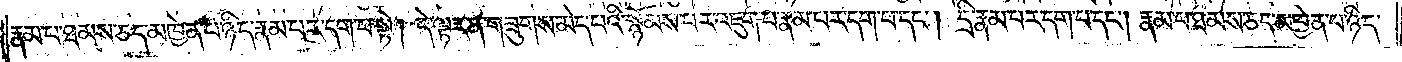རྣམ་པ་ཐམས་ཅད་མཁྱེན་པ་ཉིད་རྣམ་པར་དག་པ་སྟེ། དེ་ལྟར་ན་གཟུགས་མེད་པའི་སྙོམས་པར་འཇུག་པ་རྣམ་པར་དག་པ་དང༌། དྲི་རྣམ་པར་དག་པ་དང༌། རྣམ་པ་ཐམས་ཅད་མཁྱེན་པ་ཉིད་
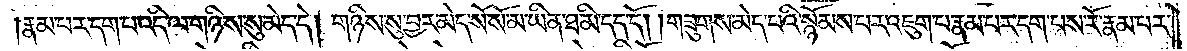རྣམ་པར་དག་པ་འདི་ལ་གཉིས་སུ་མེད་དེ། གཉིས་སུ་བྱར་མེད་སོ་སོ་མ་ཡིན་ཐ་མི་དད་དོ། །གཟུགས་མེད་པའི་སྙོམས་པར་འཇུག་པ་རྣམ་པར་དག་པས་རོ་རྣམ་པར་
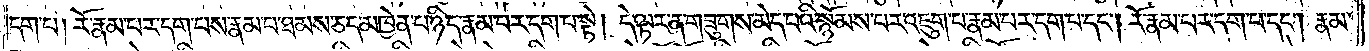དག་པ། རོ་རྣམ་པར་དག་པས་རྣམ་པ་ཐམས་ཅད་མཁྱེན་པ་ཉིད་རྣམ་པར་དག་པ་སྟེ། དེ་ལྟར་ན་གཟུགས་མེད་པའི་སྙོམས་པར་འཇུག་པ་རྣམ་པར་དག་པ་དང༌། རོ་རྣམ་པར་དག་པ་དང༌། རྣམ་
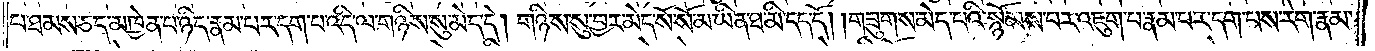པ་ཐམས་ཅད་མཁྱེན་པ་ཉིད་རྣམ་པར་དག་པ་འདི་ལ་གཉིས་སུ་མེད་དེ། གཉིས་སུ་བྱར་མེད་སོ་སོ་མ་ཡིན་ཐ་མི་དད་དོ། །གཟུགས་མེད་པའི་སྙོམས་པར་འཇུག་པ་རྣམ་པར་དག་པས་རེག་རྣམ་
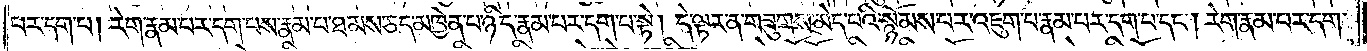པར་དག་པ། རེག་རྣམ་པར་དག་པས་རྣམ་པ་ཐམས་ཅད་མཁྱེན་པ་ཉིད་རྣམ་པར་དག་པ་སྟེ། དེ་ལྟར་ན་གཟུགས་མེད་པའི་སྙོམས་པར་འཇུག་པ་རྣམ་པར་དག་པ་དང༌། རེག་རྣམ་པར་དག་
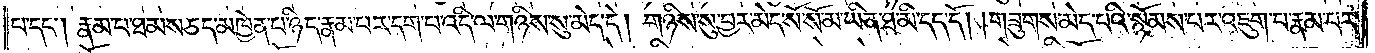པ་དང༌། རྣམ་པ་ཐམས་ཅད་མཁྱེན་པ་ཉིད་རྣམ་པར་དག་པ་འདི་ལ་གཉིས་སུ་མེད་དེ། གཉིས་སུ་བྱར་མེད་སོ་སོ་མ་ཡིན་ཐ་མི་དད་དོ། །གཟུགས་མེད་པའི་སྙོམས་པར་འཇུག་པ་རྣམ་པར་
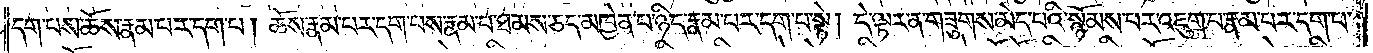དག་པས་ཆོས་རྣམ་པར་དག་པ། ཆོས་རྣམ་པར་དག་པས་རྣམ་པ་ཐམས་ཅད་མཁྱེན་པ་ཉིད་རྣམ་པར་དག་པ་སྟེ། དེ་ལྟར་ན་གཟུགས་མེད་པའི་སྙོམས་པར་འཇུག་པ་རྣམ་པར་དག་པ་
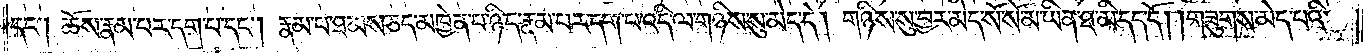དང༌། ཆོས་རྣམ་པར་དག་པ་དང༌། རྣམ་པ་ཐམས་ཅད་མཁྱེན་པ་ཉིད་རྣམ་པར་དག་པ་འདི་ལ་གཉིས་སུ་མེད་དེ། གཉིས་སུ་བྱར་མེད་སོ་སོ་མ་ཡིན་ཐ་མི་དད་དོ། །གཟུགས་མེད་པའི་
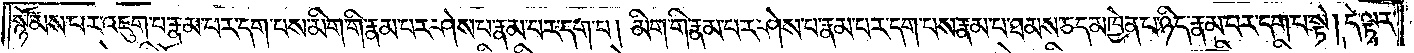སྙོམས་པར་འཇུག་པ་རྣམ་པར་དག་པས་མིག་གི་རྣམ་པར་ཤེས་པ་རྣམ་པར་དག་པ། མིག་གི་རྣམ་པར་ཤེས་པ་རྣམ་པར་དག་པས་རྣམ་པ་ཐམས་ཅད་མཁྱེན་པ་ཉིད་རྣམ་པར་དག་པ་སྟེ། དེ་ལྟར་
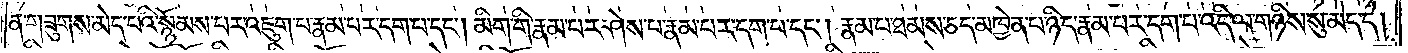ན་གཟུགས་མེད་པའི་སྙོམས་པར་འཇུག་པ་རྣམ་པར་དག་པ་དང༌། མིག་གི་རྣམ་པར་ཤེས་པ་རྣམ་པར་དག་པ་དང༌། རྣམ་པ་ཐམས་ཅད་མཁྱེན་པ་ཉིད་རྣམ་པར་དག་པ་འདི་ལ་གཉིས་སུ་མེད་དེ།
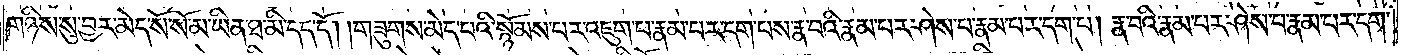གཉིས་སུ་བྱར་མེད་སོ་སོ་མ་ཡིན་ཐ་མི་དད་དོ། །གཟུགས་མེད་པའི་སྙོམས་པར་འཇུག་པ་རྣམ་པར་དག་པས་རྣ་བའི་རྣམ་པར་ཤེས་པ་རྣམ་པར་དག་པ། རྣ་བའི་རྣམ་པར་ཤེས་པ་རྣམ་པར་དག་
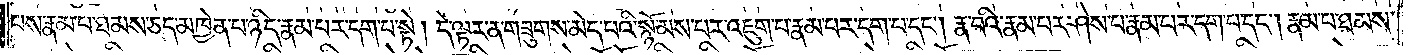པས་རྣམ་པ་ཐམས་ཅད་མཁྱེན་པ་ཉིད་རྣམ་པར་དག་པ་སྟེ། དེ་ལྟར་ན་གཟུགས་མེད་པའི་སྙོམས་པར་འཇུག་པ་རྣམ་པར་དག་པ་དང༌། རྣ་བའི་རྣམ་པར་ཤེས་པ་རྣམ་པར་དག་པ་དང༌། རྣམ་པ་ཐམས་
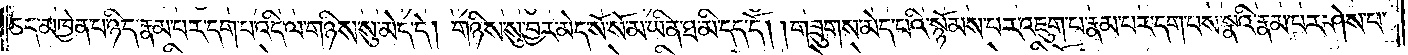ཅད་མཁྱེན་པ་ཉིད་རྣམ་པར་དག་པ་འདི་ལ་གཉིས་སུ་མེད་དེ། གཉིས་སུ་བྱར་མེད་སོ་སོ་མ་ཡིན་ཐ་མི་དད་དོ། །གཟུགས་མེད་པའི་སྙོམས་པར་འཇུག་པ་རྣམ་པར་དག་པས་སྣའི་རྣམ་པར་ཤེས་པ་
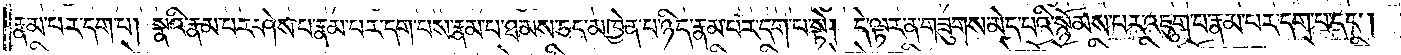རྣམ་པར་དག་པ། སྣའི་རྣམ་པར་ཤེས་པ་རྣམ་པར་དག་པས་རྣམ་པ་ཐམས་ཅད་མཁྱེན་པ་ཉིད་རྣམ་པར་དག་པ་སྟེ། དེ་ལྟར་ན་གཟུགས་མེད་པའི་སྙོམས་པར་འཇུག་པ་རྣམ་པར་དག་པ་དང༌།
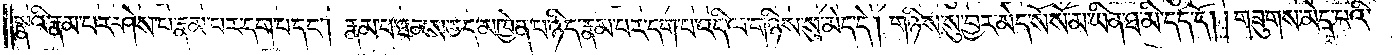སྣའི་རྣམ་པར་ཤེས་པ་རྣམ་པར་དག་པ་དང༌། རྣམ་པ་ཐམས་ཅད་མཁྱེན་པ་ཉིད་རྣམ་པར་དག་པ་འདི་ལ་གཉིས་སུ་མེད་དེ། གཉིས་སུ་བྱར་མེད་སོ་སོ་མ་ཡིན་ཐ་མི་དད་དོ། །གཟུགས་མེད་པའི་
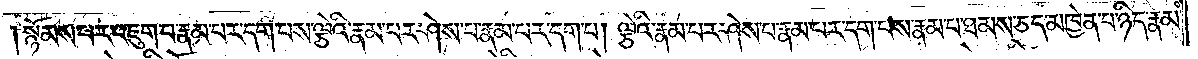སྙོམས་པར་འཇུག་པ་རྣམ་པར་དག་པས་ལྕེའི་རྣམ་པར་ཤེས་པ་རྣམ་པར་དག་པ། ལྕེའི་རྣམ་པར་ཤེས་པ་རྣམ་པར་དག་པས་རྣམ་པ་ཐམས་ཅད་མཁྱེན་པ་ཉིད་རྣམ་
